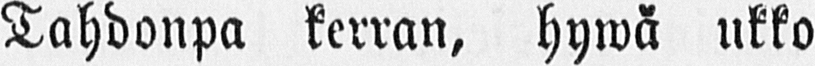Tahdonpa kerran, hywä ukko
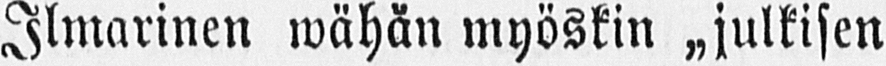Ilmarinen wähän myöskin „julkisen
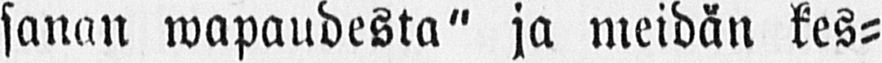sanan wapaudesta" ja meidän kes-
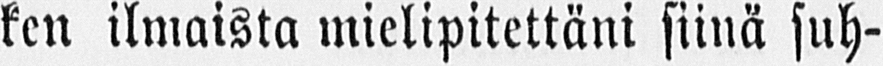ken ilmaista mielipitettäni siinä suh-
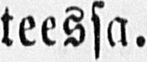teessa.
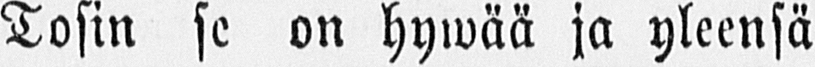Tosin se on hywää ja yleensä
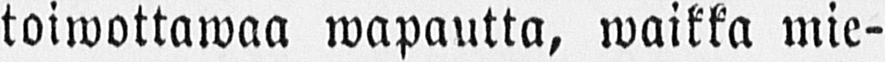toiwottawaa wapautta, waikka mie-
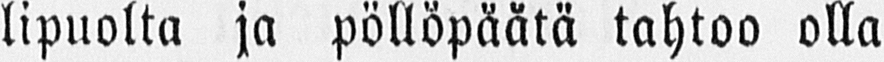lipuolta ja pöllöpäätä tahtoo olla
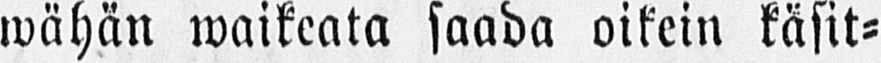wähän waikeata saada oikein käsit-
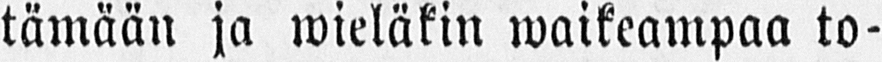tämään ja wieläkin waikeampaa to-
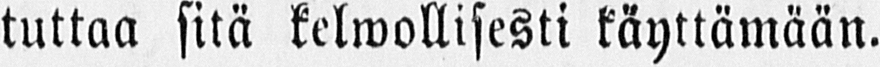tuttaa sitä kelwollisesti käyttämään.
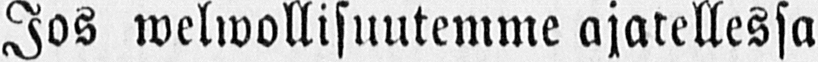Jos welwollisuutemme ajatellessa
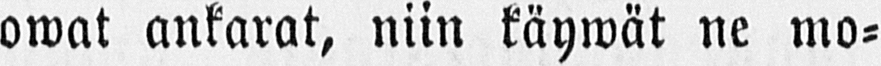owat ankarat, niin käywät ne mo-
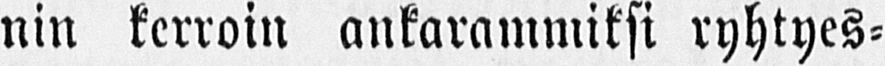nin kerroin ankarammiksi ryhtyes-
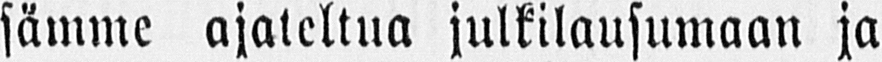sämme ajateltua julkilausumaan ja
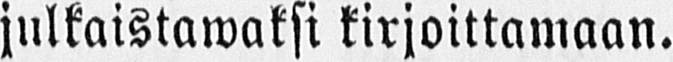julkaistawaksi kirjoittamaan.
